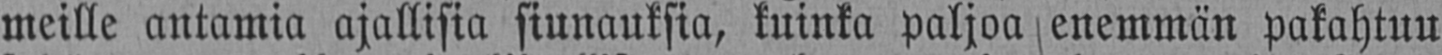meille antamia ajallisia siunauksia, kuinka paljoa enemmän pakahtuu
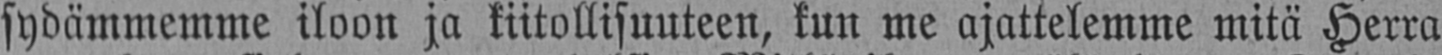sydämmemme iloon ja kiitollisuuteen, kun me ajattelemme mitä Herra
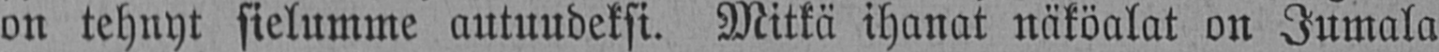on tehnyt sielumme autuudeksi. Mitkä ihanat näköalat on Jumala
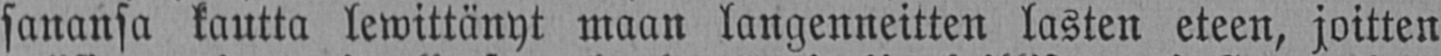sanansa kautta lewittänyt maan langenneitten lasten eteen, joitten
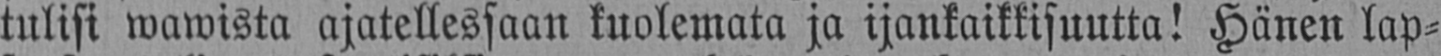tulisi wawista ajatellessaan kuolemata ja ijankaikkisuutta! Hänen lap-
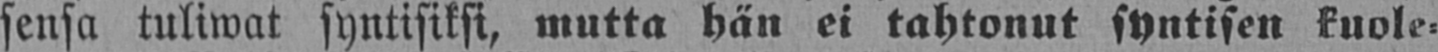sensa tuliwat syntisiksi, mutta hän ei tahtonut syntisen kuole-
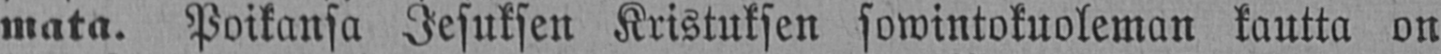mata. Poikansa Jesuksen Kristuksen sowintokuoleman kautta on
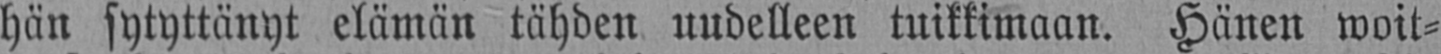hän sytyttänyt elämän tähden uudelleen tuikkimaan. Hänen woit-
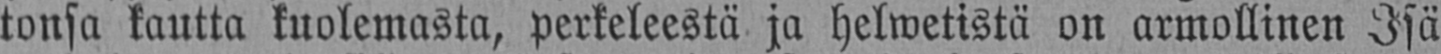tonsa kautta kuolemasta, perkeleestä ja helwetistä on armollinen Isä
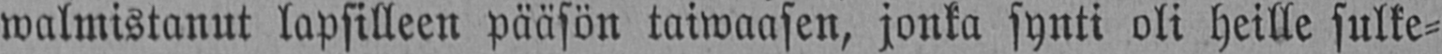walmistanut lapsilleen pääsön taiwaasen, jonka synti oli heille sulke-
